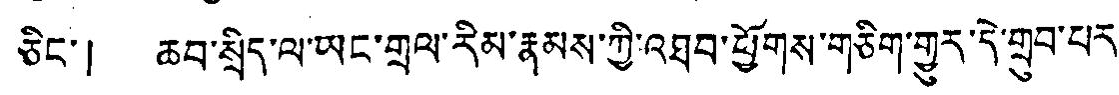ཅིང་། ཆབ་སྲིད་ལ་ཡང་གྲལ་རིམ་རྣམས་ཀྱི་འཐབ་ཕྱོགས་གཅིག་གྱུར་དེ་གྲུབ་པར་
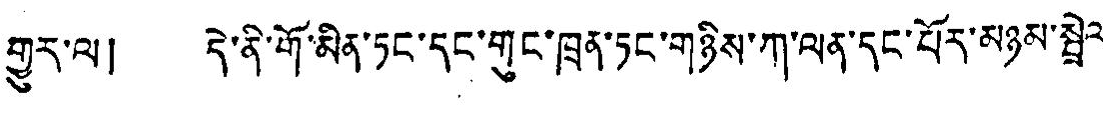གྱུར་ལ། དེ་ནི་གོ་མིན་ཏང་དང་གུང་ཁྲན་ཏང་གཉིས་ཀ་ལན་དང་པོར་མཉམ་སྦྱེལ་
